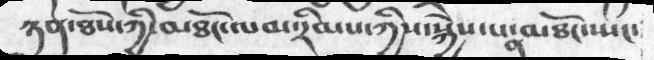ཉན་ཐོས་ཀྱི་མཐོང་ལམ་རིམས་ཀྱིས་སྐྱེས་པ་ན་མཐོང་ཡང་
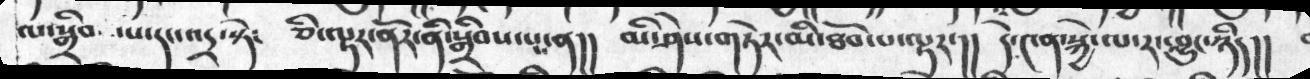ལ་སྒྲིབ ་པ་དང་འདྲ་སྟེ༴  ཅི་ལྟར་ནོར་ནི་སྒྲིབས་པ་ན།།  མི་ཤེས་གཏེར་མི་ཐོབ་པ་ལྟར་།། དེ་༤ན་སྐྱེ་ལ་རང་བྱུང་ཉིད།།
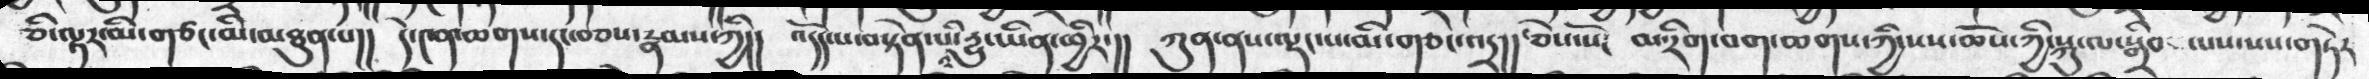ཅི་ལྟར་མི་གཙང་མི་མཐུན་པ།། དེ་༤ན་ཆགས་དང་བཅས་རྣམས་ཀྱི།། འདོད་པ་བསྟེན་པི་རྱུ་ཡིན་ཕྱིར་།། ཀུན་ནས་ལྡང་པ་མི་གཙང་འདྲ།།ཅེས་སོ། མ་རིག་བག་ཆགས་ཀྱི་སས་ཆོས་ཀྱི་སྐུ་ལ་སྒྲིབ ལས་སས་གཏེར
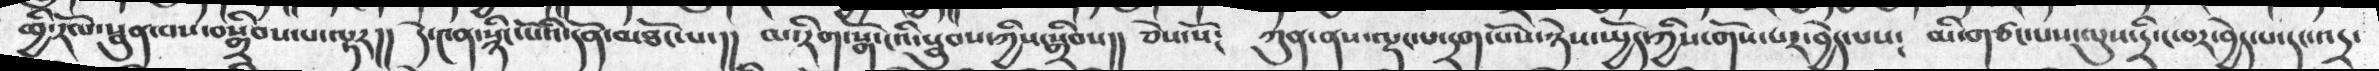ཕྱི་རོལ་སྦུན་བས་བསྒྲིབས་པ་ལྟར།། དེ་༤ན་སྙིང་པོའི་དོན་མཐོང་པ་།། མ་རིག་སྒོ་ངའི་སྦུབས་ཀྱིས་སྒྲིབས།། ཅེས་སོ༴ ཀུན་ནས་ལྡང་པ་དྲག་པོས་ཉེས་སྤྱོད་ཀྱིས་གོས་པར་བྱེད་པས༴ མི་གཙང་པས་ལུས་དྲི་ང་བར་བྱེད་པ་དང་འདྲ་
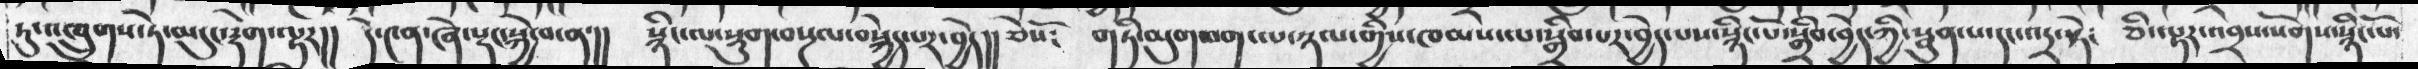ཏུ་འཁྲུགས་ཏེ་མདུང་རྡེག་ལྟར།། དེ་༤ན་ཞེ་སྡང་སྐྱེ་བ་ན་།། སྙིང་ལ་སྡུག་བསྔལ་བསྐྱེད་པར་བྱེད།། ཅེསོ༴  གཏི་མུག་བག་ལ་ཉལ་གྱིས་ཁམས་ལ་སྒྲིབ་པར་བྱེད་པས་སྙིང་པོ་སྒྲིབ་བྱེད་ཀྱི་སྦུན་པ་དང་འདྲ་སྟེ༴ ཅི་ལྟར་འབྲས་སོགས་སྙིང་པོ་
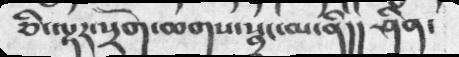ཅི་ལྟར་སྲོག་ཆགས་སྦྲང་མ་ནི།།  ཤིན་
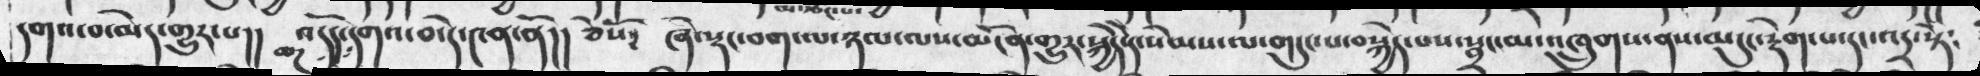དགའ་བ་མེད་གྱུར་པ།།  འདོད་ཆཌ་དགའ་བ་དེ་༤ན་ནོ།།  ཅེསོ༴  ཞེ་སྡང་བག་ལ་ཉལ་ལས་མངོན་གྱུར་སྐྱེད་དེ་སེམས་ལ་གདུང་བསྐྱེད་པས་སྦྲང་མ་འཁྲུགས་ནས་མདུང་རྡེག་པ་དང་འདྲ་སྟེ༴
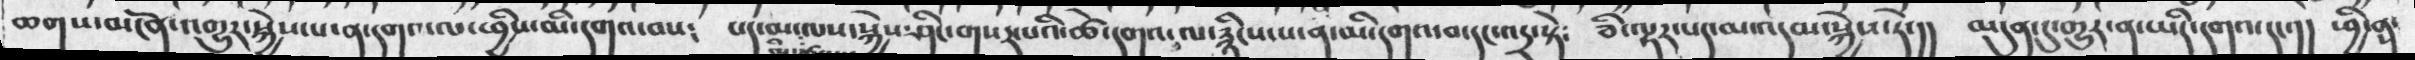ཆགས་མངོན་འགྱུར་སྐྱེས་པ་ན་དགའ་ལ་ཕྱིས་མི་དགའ་བས༴  པད་མ་ལས་སྐྱེས་ཤིང་གསར་པའི་ཚེ་དགའ་ལ་རྙིང་པ་ན་མི་དགའ་བ་དང་འདྲ་སྟེ༴ ཅི་ལྟར་པད་མ་འདམ་སྐྱེས་ཏེ་།།  མདུན་དུ་གྱུར་ན་ཡིད་དགའ་དང་།། ཕྱི་ན་
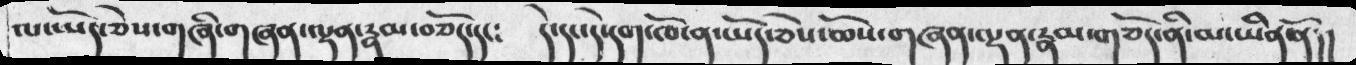ལ་ཡོད་ཅེས་གཞི་གཞན་ལྡན་རྣམ་བཅོད་དང༴  དེ་དང་དེ་དག་ཁོ་ན་ཡོད་ཅེས་ཆོས་གཞན་ལྡན་རྣམ་གཅོད་ནི་མ་ཡིན་ནོ།།
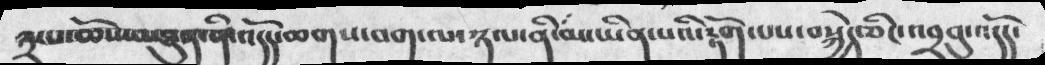༣་པ་ཆོས་མཐུན་ནི་འདོད་ཆགས་བག་ལ་ཉལ་ནི་མ་ཡིན་པའི་རྟོག་པས་བསྐྱེད་ཅིང་འབྲབུ་འདོད་
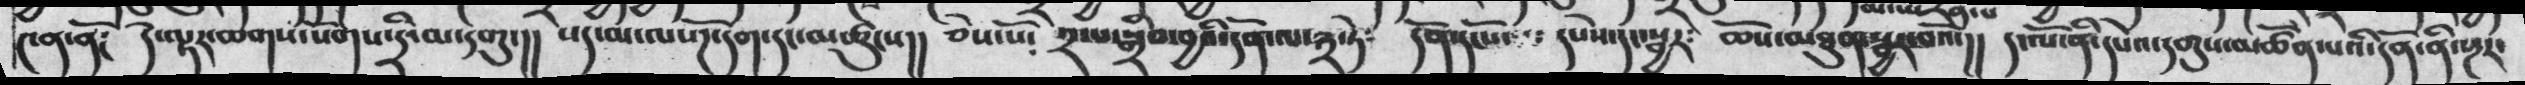༤ན་ནོ༴     དེ་ལྟར་ཆགས་སོགས་དྲི་མ་དགུ་།།   པད་མ་ལསོཌ་དག་དང་མཚུངས།།  ཅེས་སོ༴    ༢་པ་སྒྲིབ་བྱའི་དོན་ལ་༣་ཏེ༴   དོན་དངོས་དཔེས་དང་སྦྱར༴   ཆོས་མཐུན་སྦྱར་བའོ་།།   ད་ལོ་ནི་དཔེའ་དགུ་མཚོན་པའི་དོན་ནི་སྔར་
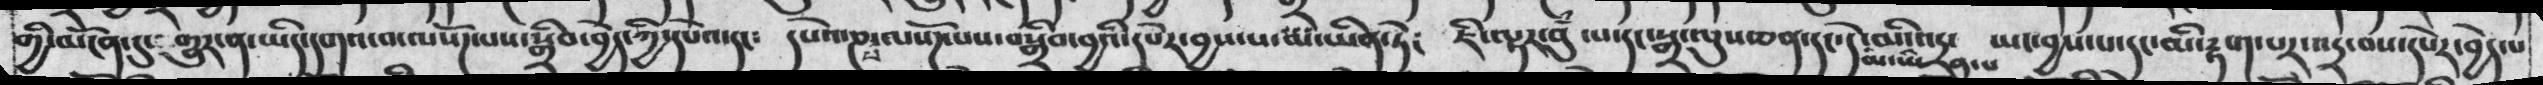གྱི་མངོན་དུ་ གྱུར་ན་ཡིད་དགའ་བ་ལ་སོཌ་པས་སྒྲིབ་བྱེད་ཀྱི་དཔེའ་དང་   དཔེའ་ཎ་པ་ལསོཌ་པས་བསྒྲིབ་བྱའི་དཔེར་བྱས་པ་ཡིན་ཏེ་   ཇི་ལྟ་བུ་པ་དང་སྒྲ་ལུས་ཅན་དང་དེ་མ་ཡིན་པ་མི་འདྲ་   ཡང་བྱས་པ་དང་མི་མི་རྟག་པར་འདྲ་བས་དཔེར་བྱེད་པ
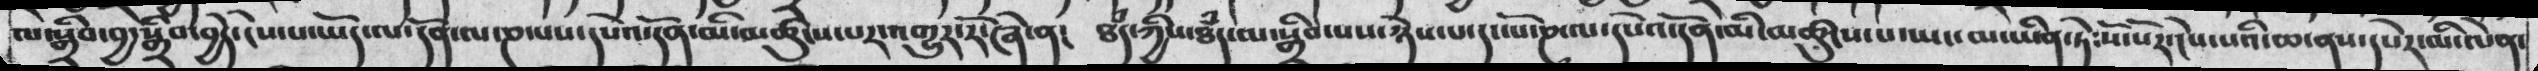ལ་སྒྲིབ་བྱ་སྒྲིབ་བྱེད་ངེས་པ་ཡོད་ལ་དོན་ལ་ཎ་པས་དཔེའ་དོན་མི་མཚུངས་པར་འགྱུར་རོ་ཞེ་ན༴  ཐཾད་ཀྱིས་ཐཾད་ལ་སྒྲིབ་པས་ཉེས་པ་དང་པོ་ཎ་ལ་དཔེའ་དོན་མི་མཚུངས་པ་ཡང་མ་ཡིན་ཏེ་སོ་སོར་ངེས་པའི་ཆ་ནས་དཔེར་མི་ལེན་
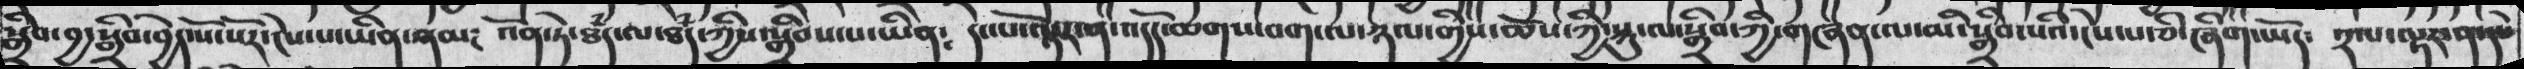སྒྲི་བྱ་སྒྲིབ་བྱེད་སོ་སོར་ངེས་པ་ཡིན་ནམ༴  འོན་ཏེ་ཐཾད་ལ་ཐཾད་ཀྱིས་སྒྲིབས་པ་ཡིན༴  དང་པོ་ལྟར་ན་འདོད་ཆགས་བག་ལ་ཉལ་གྱིས་ཆོས་ཀྱི་སྐུ་ལ་སྒྲིབ་ཀྱི་གཞན་ལ་མི་སྒྲིབ་པའི་ངེས་པ་ཅི་ཞིག་ཡོད༴  ༢་པ་ལྟར་ན་དཔེ
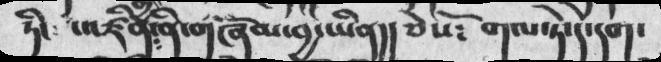ཏོང་   འཛིན་ནི་གཞོམ་བྱ་ཡིན།།   ཅེསོ༴    གལ་ཏེ་དེ་དག་
